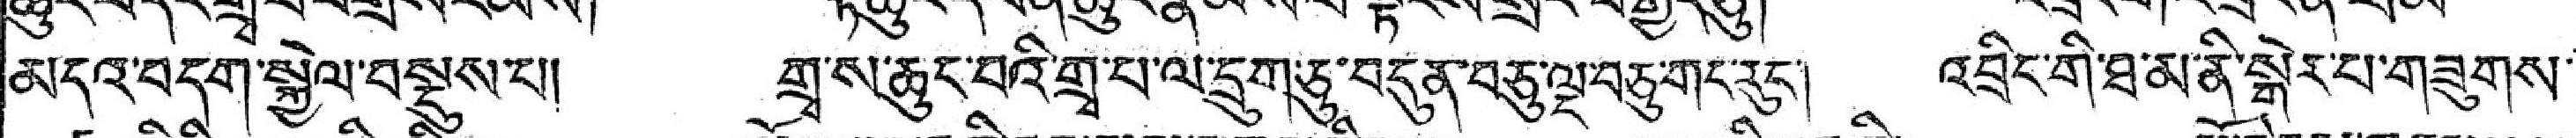མདའ་བདག་སྐྱེལ་བསས་པ། གྲྭ་ས་ཆུང་བའི་གྲྭ་པ་ལ་དྲུག་ཅུ་བདུན་བཅུ་ལྔ་བཅུ་གང་རུང་། འབྲིང་གི་ཐ་མ་ནི་སྒེར་པ་གཟུགས་
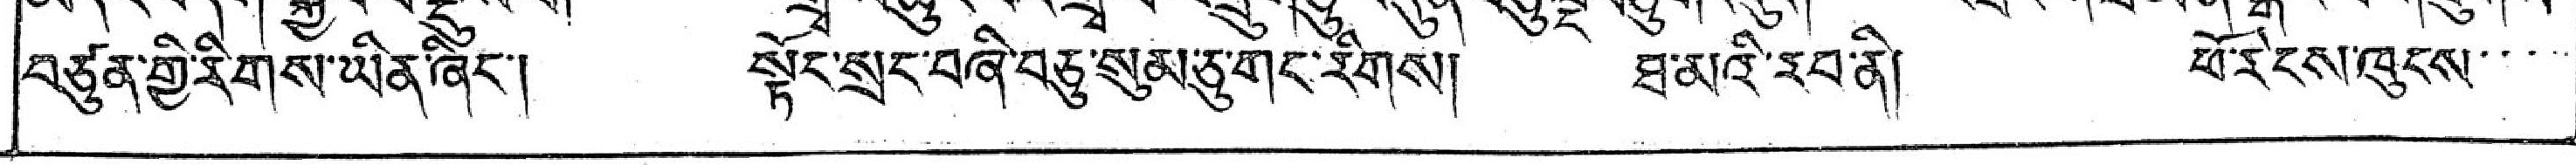བཙུན་གྱི་རིགས་ཡིན་ཞིང་། སྟོང་སྲང་བཞི་བཅུ་སུམ་ཅུ་གང་རིགས། ཐ་མའི་རབ་ནི། ཕོ་རེངས་ཁུངས་་་་
